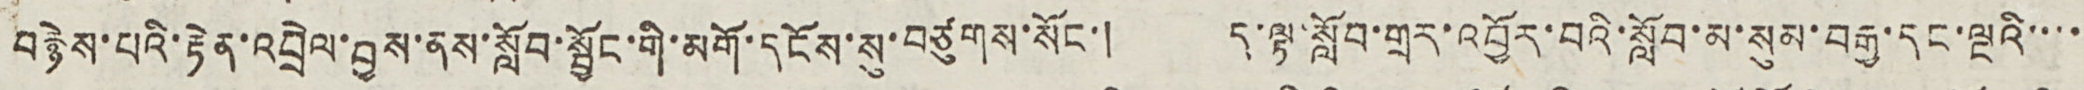བརྙེས་པའི་རྟེན་འབྲེལ་བྱས་ནས་སློབ་སྦྱོང་གི་མགོ་དངོས་སུ་བཙུགས་སོང་། ད་ལྟ་སློབ་གྲར་འབྱོར་བའི་སློབ་མ་སུམ་བརྒྱ་དང་ལྔའི་་་་
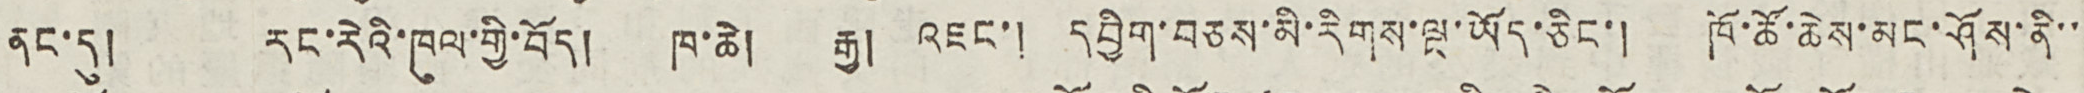ནང་དུ། རང་རེའི་ཁུལ་གྱི་བོད། ཁ་ཆེ། རྒྱ། འཇང་། དབྱིག་བཅས་མི་རིགས་ལྔ་ཡོད་ཅིང་། ཁོ་ཚོ་ཆེས་མང་ཤོས་ནི་་
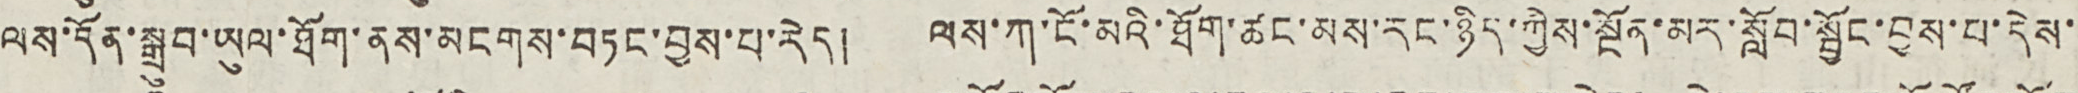ལས་དོན་སྒྲུབ་ཡུལ་ཐོག་ནས་མངགས་བཏང་བྱས་པ་རེད། ལས་ཀ་ངོ་མའི་ཐོག་ཚང་མས་རང་ཉིད་ཀྱིས་སྔོན་མར་སློབ་སྦྱོང་བྱས་པ་དེས་
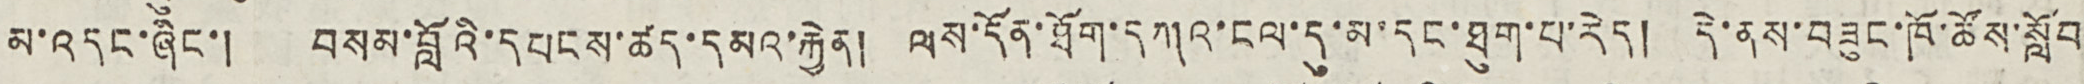མ་འདང་ཞིང་། བསམ་བློའི་དཔངས་ཚད་དམའ་རྐྱེན། ལས་དོན་ཐོག་དཀའ་ངལ་དུ་མ་དང་ཐུག་པ་རེད། དེ་ནས་བཟུང་ཁོ་ཚོས་སློབ
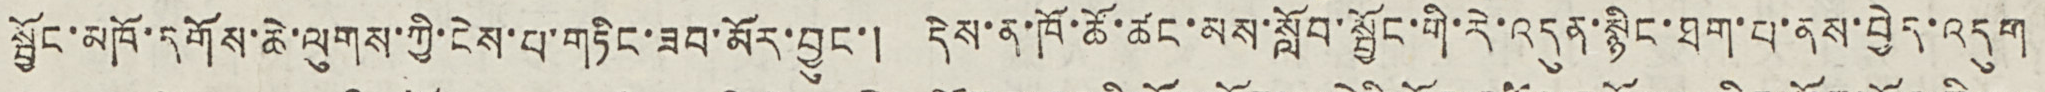སྦྱོང་མཁོ་དགོས་ཆེ་ལུགས་ཀྱི་ངེས་པ་གཏིང་ཟབ་མོར་བྱུང་། དེས་ན་ཁོ་ཚོ་ཚང་མས་སློབ་སྦྱོང་གི་རེ་འདུན་སྙིང་ཐག་པ་ནས་བྱེད་འདུག
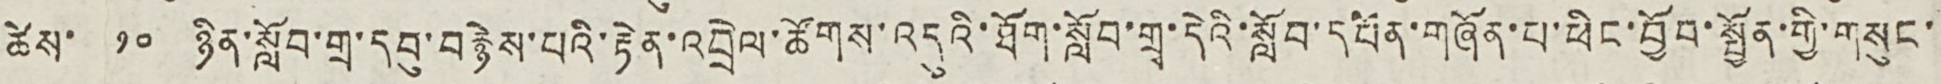ཚེས་ ༡༠ ཉིན་སློབ་གྲྭ་དབུ་བརྙེས་པའི་རྟེན་འབྲེལ་ཚོགས་འདུའི་ཐོག་སློབ་གྲྭ་དེའི་སློབ་དཔོན་གཞོན་པ་ཕིང་བྱོབ་སྤྱོན་གྱི་གསུང་
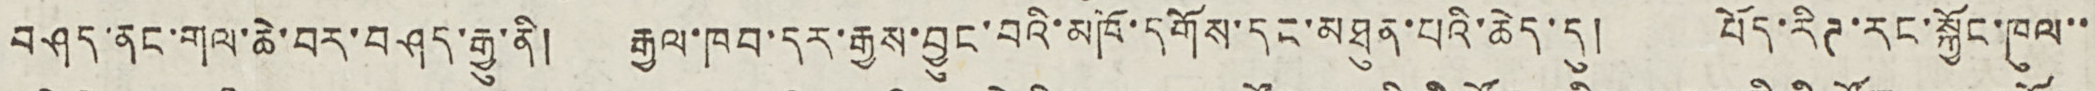བཤད་ནང་གལ་ཆེ་བར་བཤད་རྒྱུ་ནི། རྒྱལ་ཁབ་དར་རྒྱས་བྱུང་བའི་མཁོ་དགོས་དང་མཐུན་པའི་ཆེད་དུ། པོད་རིཊ་རང་སྐྱོང་ཁུལ་་
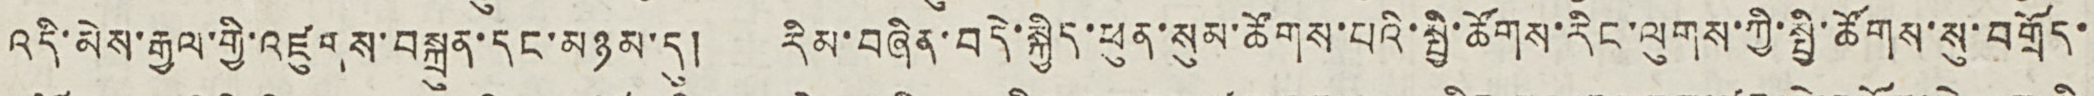འདི་མེས་རྒྱལ་གྱི་འཛུགས་བསྐྲུན་དང་མཉམ་དུ། རིམ་བཞིན་བདེ་སྐྱིད་ཕུན་སུམ་ཚོགས་པའི་སྤྱི་ཚོགས་རིང་ལུགས་ཀྱི་སྤྱི་ཚོགས་སུ་བགྲོད་
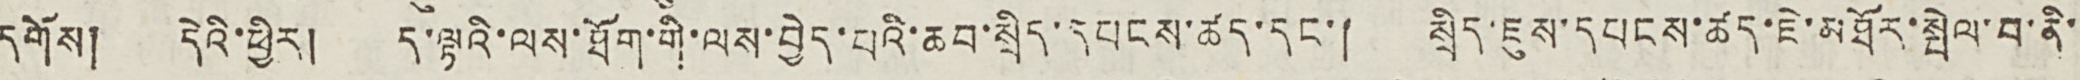དགོས། དེའི་ཕྱིར། ད་ལྟའི་ལས་ཐོག་གི་ལས་བྱེད་པའི་ཆབ་སྲིད་དཔངས་ཚད་དང་། སྲིད་ཇུས་དཔངས་ཚད་ཇེ་མཐོར་སྤེལ་བ་ནི་
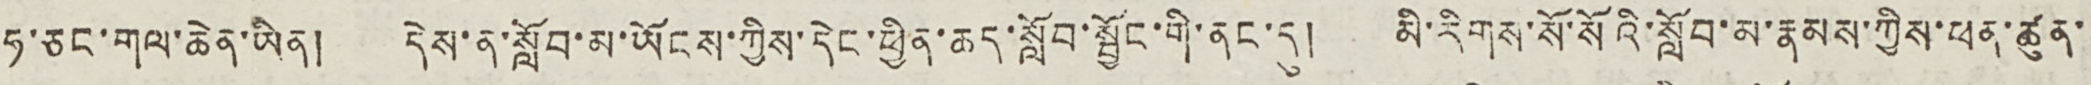ཧ་ཅང་གལ་ཆེན་ཡིན། དེས་ན་སློབ་མ་ཡོངས་ཀྱིས་དེང་ཕྱིན་ཆད་སློབ་སྦྱོང་གི་ནང་དུ། མི་རིགས་སོ་སོའི་སློབ་མ་རྣམས་ཀྱིས་ཕན་ཚུན་
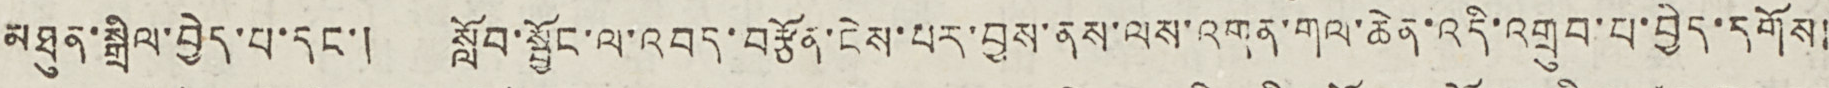མཐུན་སྒྲིལ་བྱེད་པ་དང་། སློབ་སྦྱོང་ལ་འབད་བརྩོན་ངེས་པར་བྱས་ནས་ལས་འགན་གལ་ཆེན་འདི་འགྲུབ་པ་བྱེད་དགོས།
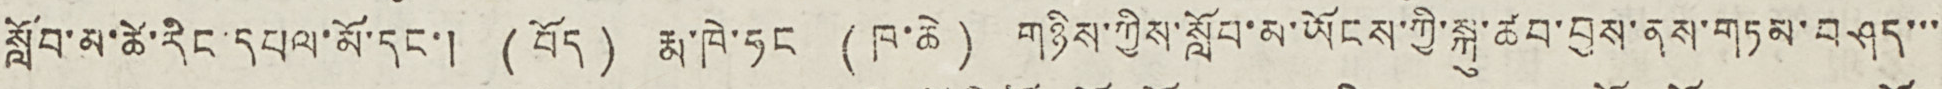སློབ་མ་ཚེ་རིང་དཔལ་མོ་དང་། (བོད) རྨ་ཁེ་ཧང (ཁ་ཆེ) གཉིས་ཀྱིས་སློབ་མ་ཡོངས་ཀྱི་སྐུ་ཚབ་བྱས་ནས་གཏམ་བཤད་་་
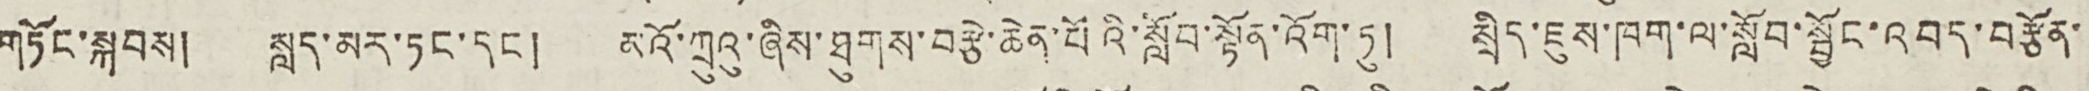གཏོང་སྐབས། སླད་མར་ཏང་དང། མའོ་ཀྲུའུ་ཞིས་ཐུགས་བརྩེ་ཆེན་པོའི་སློབ་སྟོན་འོག་ཏུ། སྲིད་ཇུས་ཁག་ལ་སློབ་སྦྱོག་འབད་བརྩོན་
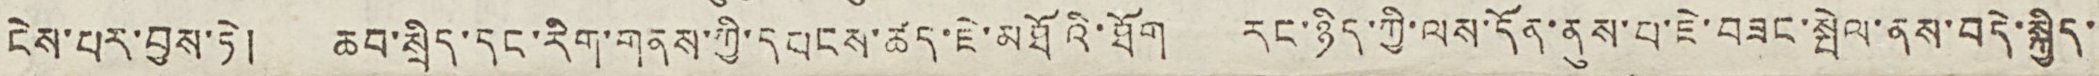ངེས་པར་བྱས་ཏེ། ཆབ་སྲིད་དང་རིག་གནས་ཀྱི་དབངས་ཚད་ཇེ་མཐོའི་ཐོག རང་ཉིད་ཀྱི་ལས་དོན་ནུས་པ་ཇེ་བཟང་སྤེལ་ནས་བདེ་སྐྱིད་
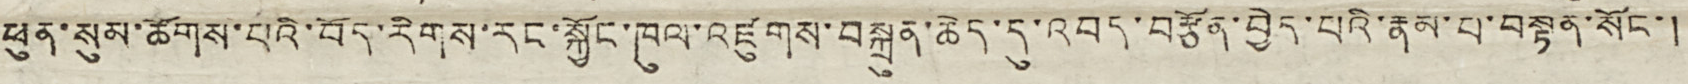ཕུན་སུམ་ཚོགས་པའི་བོད་རིགས་རང་སྐྱོང་ཁུལ་འཛུགས་བསྐྲུན་ཆེད་དུ་འབད་བརྩོན་བྱེད་པའི་རྣམ་པ་བསྟན་སོང་།
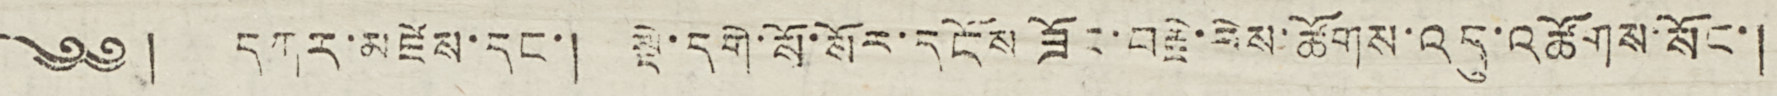༄༅ ། དཀར་མཛེས་དང་། སྡེ་དགེ་སོ་སོར་དངོས ཟོང་བརྗེ་ངེས་ཚོགས་འདུ་འཚོགས་སོང་།
